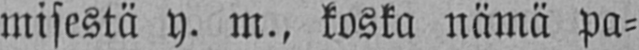misestä y. m., koska nämä pa-
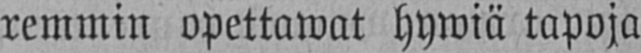remmin opettawat hywiä tapoja
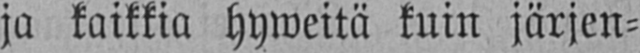ja kaikkia hyweitä kuin järjen-
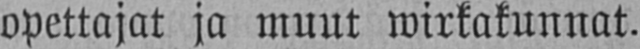opettajat ja muut wirkakunnat.
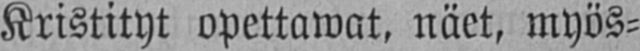Kristityt opettawat, näet, myös-
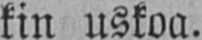kin uskoa.
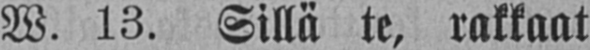W. 13. Sillä te, rakkaat
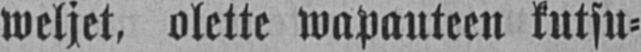weljet, olette wapauteen kutsu-
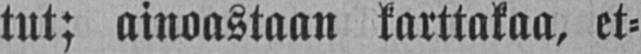tut; ainoastaan karttakaa, et-
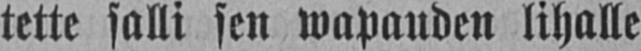tette salli sen wapauden lihalle
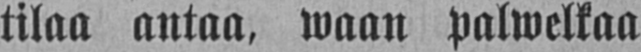tilaa antaa, waan palwelkaa
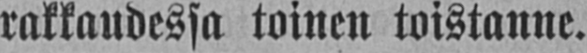rakkaudessa toinen toistanne.
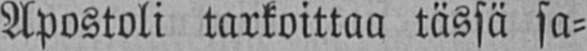Apostoli tarkoittaa tässä sa-
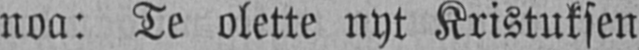noa: Te olette nyt Kristuksen
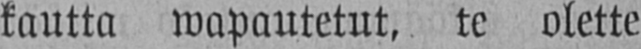kautta wapautetut, te olette
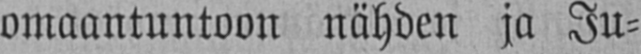omaantuntoon nähden ja Ju-
